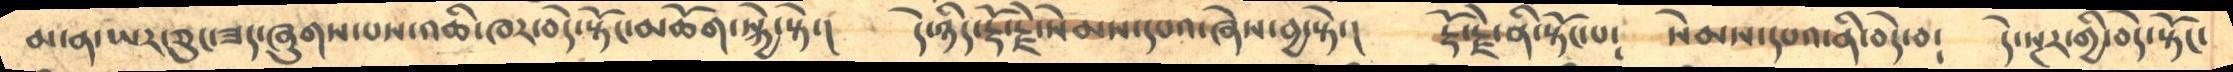མ་ན་ཡར་ཅུང་ཟད་ཞུགས་པས་འཆི་ཁར་བདེ་སྟོང་མཆོག་སྐྱེ་སྟེ་།      དེ་ཉིད་རྡོ་རྗེ་སེམས་དཔའ་ཞེས་བྱ་སྟེ་།      རྡོ་རྗེ་ནི་སྟོང་པ༴     སེམས་དཔའ་ནི་བདེ་བ༴    དེ་སྔར་གྱི་བདེ་སྟོང་
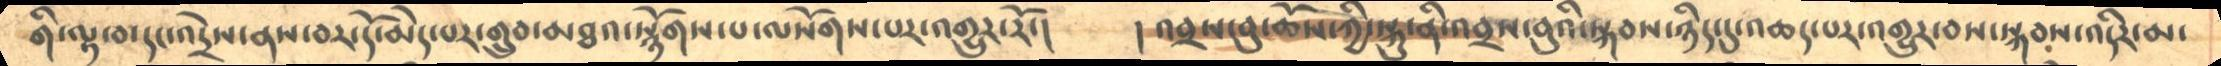གི་ལྟ་བ་དང་འདྲེས་ནས་བར་དོ་མེད་པར་གྲུབ་མཐའ་སྙོགས་པ་ལསོགས་པར་འགྱུར་རོ་།      །འབྲས་བུ་ཆོས་ཀྱི་སྐུ་ནི་འབྲས་བུའི་སྐབས་ཉིད་དུ་འཆད་པར་འགྱུར་བས་སྐབས་འདིར་མ་
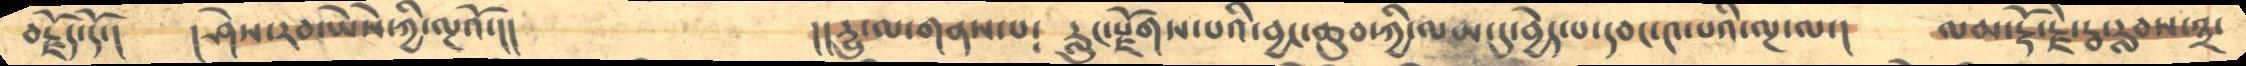བརྗོད་དོ་།      །ཤེས་རབ་ཡཻས་ཀྱི་ལྔའོ་།།            །།དྱུ་ལ་གནས་པ༴  རླུང་རྫོགས་པའི་བྱང་ཆུབ་ཀྱི་ལམ་དུ་བྱེད་པ་དབང་༤་པའི་ལྔ་ལ་།     ལམ་རྡོ་རྗེ་རྦ་རླབས་༣་
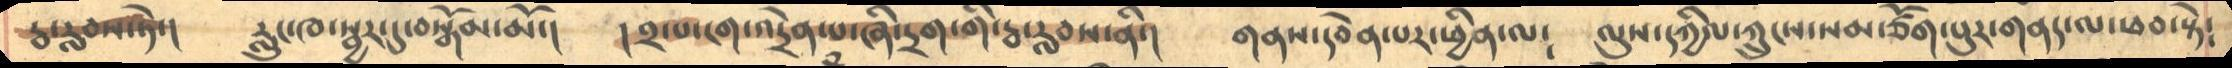རྦ་རླབས་ཏེ་།      རླུང་ཁ་སྦྱོར་དུ་བསྒོམ་མོ་།    །༢་པ་ངག་འདྲེན་པ་ཞི་དྲག་གི་རྦ་རླབས་ནི་།    གནས་དབེན་པར་ཕྱིན་ལ༴    ལུས་དཀྱིལ་ཀྲུངས་སམ་ཙོག་པུར་གནད་ལ་ཕབ་སྟེ༴
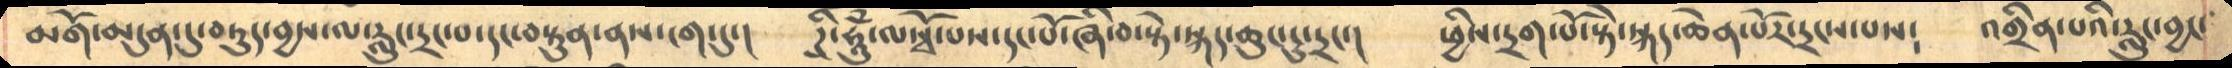མགོ་མདུན་དུ་བཏུད་བྱས་ལ་རླུང་དྲང་བ་དང་བསྟུན་ནས་ངག་དུ་།       ཌི་ཧཱུཾ་ལསྭོ་པས་དང་པོ་ཞི་བ་སྟེ་སྐད་ཆུང་ངུ་དྲང་།     ཕྱིས་དྲག་པོ་སྟེ་སྐད་ཆེན་པོར་དྲངས་པས༴     འགྲིན་པའི་རླུང་བྱང་
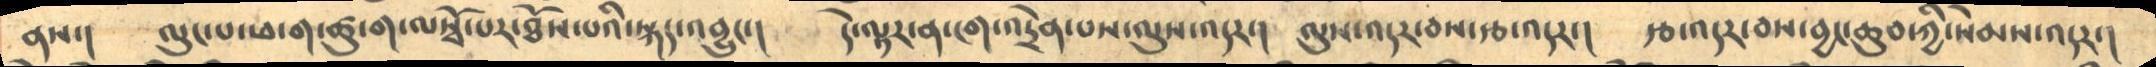ནས་།        ལུང་པ་ཕ་ག་ཚུ་ག་ལསྭོ་པར་ཐོས་པའི་སྐད་འབྱུང་།      དེ་ལྟར་ན་ངག་འདྲེན་པས་ལུས་འདར་།    ལུས་འདར་བས་རྩ་འདར་།    རྩ་འདར་བས་བྱང་ཆུབ་ཀྱི་སེམས་འདར་།
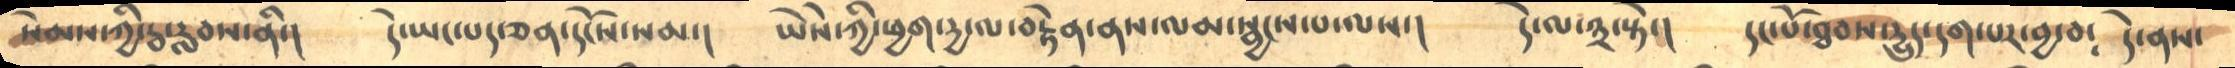སེམས་ཀྱི་རྦ་རླབས་ནི་།     དེ་ཡང་པད་ཅན་དངོས་སམ་།     ཡཻས་ཀྱི་ཕྱག་དྱ་ལ་བརྟེན་ནས་ལམ་སྦྱངས་པ་ལས་།      དེ་ལ་༣་སྟེ་།     དང་པོ་ཐབས་དྱུད་དག་པར་བྱ་བ༴   དེ་ནས་
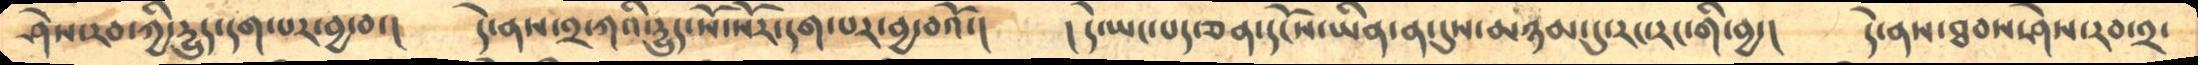ཤེས་རབ་ཀྱི་དྱུད་དག་པར་བྱ་བ་།      དེ་ནས་༢་ཀའི་དྱུད་སོ་སོར་དག་པར་བྱ་བའོ་།     །དེ་ཡང་པད་ཅན་དངོས་ཡིན་ན་དུས་མཉམ་དུ་རང་རང་གི་བྱ་།     དེ་ནས་ཐབས་ཤེས་རབ་༢་
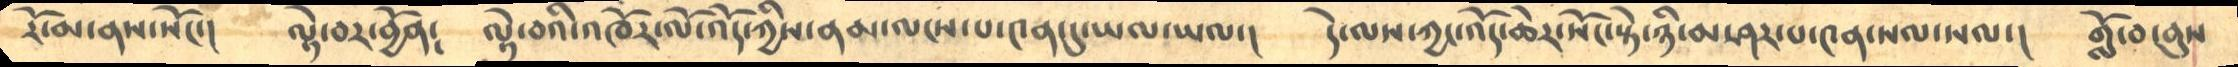རོ་མ་ནས་སོང་།     ལྟེ་བར་བྱོན༴     ལྟེ་བའི་འཁོར་ལོ་འོད་ཀྱིས་ནམ་ལངས་པ་༤ན་དུ་ཡལ་ཡལ་།      དེ་ལས་ཀྱང་འོད་ཆེར་སོང་སྟེ་ཉི་མ་ཤར་པ་༤ན་ཡལ་ཡལ་།      གློ་བ་ནུས
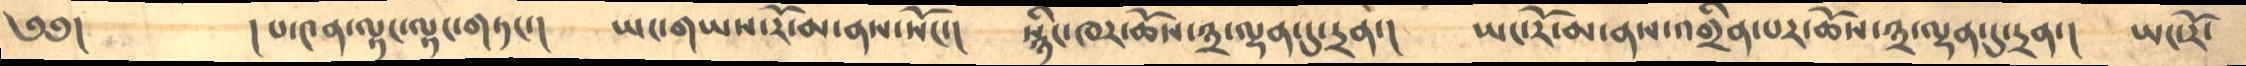༄༅།         །པ་༤ན་ལྷང་ལྷང་གཏང་།      ཡང་གཡས་རོ་མ་ནས་སོང་།      སྙིང་ཁར་ཆོས་༣་ལྡན་དུ་དྲན་།      ཡང་རོ་མ་ནས་འགྲིན་པར་ཆོས་༣་ལྡན་དུ་དྲན་།   ཡང་རོ་
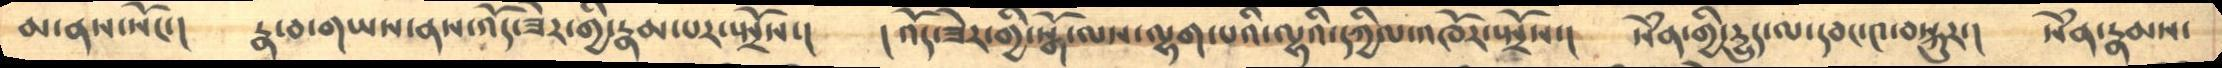མ་ནས་སོང་།      རྣ་བ་གཡས་ནས་འོད་ཟེར་གྱི་རྣམ་པར་སྤྲོས་།        །འོད་ཟེར་གྱི་སྒོ་ལས་ལྷག་པའི་ལྷའི་དཀྱིལ་འཁོར་སྤྲོས་།     སེཾན་གྱི་དྱུད་ལ་དབང་༤་བསྐུར་།     སེཾན་རྣམས་
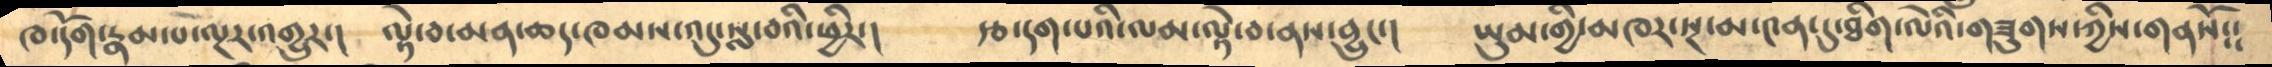ཁ་དོག་རྣམ་པ་ལྔར་འགྱུར་།   ལྟེ་བ་མན་ཆད་ཁམས་འདུ་སླ་བའི་ཕྱིར་།     རྩ་དག་པའི་ལམ་ལྟེ་བ་ནས་བྱུང་།    ཡུམ་གྱི་མཁར་སྔ་མ་༤ན་དུ་ཐིག་ལེའི་གཟུགས་ཀྱིས་གནསོ༴༴
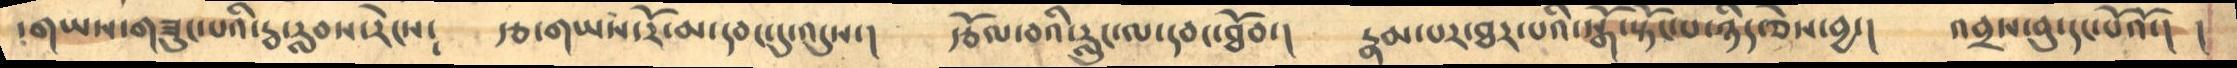གཡས་གཟུང་པའི་རྦ་རླབས་རེངས༴    རྩ་གཡས་རོ་མ་དབང་དུ་འདུས་།     རྩོལ་བའི་རླུང་ལ་དབང་ཐོབ་།    རྣམ་པར་ཐར་པའི་སྒོ་སྟོང་པ་ཉིད་ཅེས་བྱ་།     འབྲས་བུ་དང་པོའོ་།  །
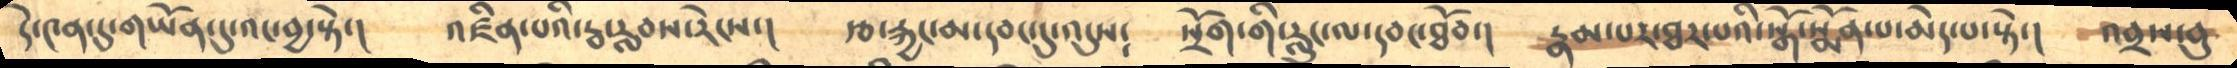དེ་༤ན་དུ་གཡོན་དུ་འང་བྱ་སྟེ་།     འཛིན་པའི་རྦ་རླབས་རེངས་།      རྩ་རྐྱང་མ་དབང་དུ་འདུས༴   སྲོག་གི་རླུང་ལ་དབང་ཐོབ་།     རྣམ་པར་ཐར་པའི་སྒོ་སྨོན་པ་མེད་པ་སྟེ་།     འབྲས་བུ
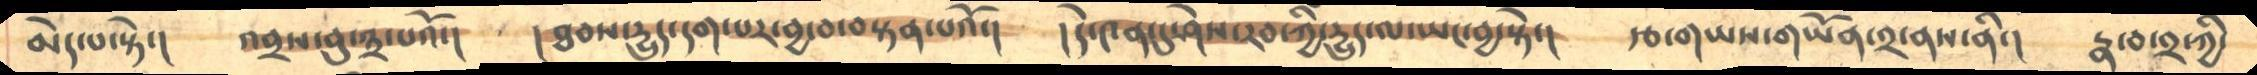མེད་པ་སྟེ་།    འབྲས་བུ་༣་པའོ་།      །ཐབས་དྱུད་དག་པར་བྱ་བ་བསྟན་པའོ་།      །དེ་༤ན་དུ་ཤེས་རབ་ཀྱི་དྱུད་ལ་ཡང་བྱ་སྟེ་།     རྩ་གཡས་གཡོན་༢་ནས་ནི་།     རྣ་བ་༢་ཀྱི་
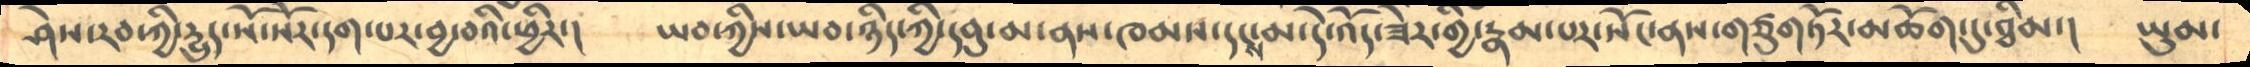ཤེས་རབ་ཀྱི་དྱུད་སོ་སོར་དག་པར་བྱ་བའི་ཕྱིར་།     ཡབ་ཀྱིས་ཡབ་ཉིད་ཀྱི་དབུ་མ་ནས་ཁམས་དང་མ་དེ་འོད་ཟེར་གྱི་རྣམ་པར་སོང་ནས་གཙུགཏོར་མཆོག་དུ་ཐིམ་།     ཡུམ་
